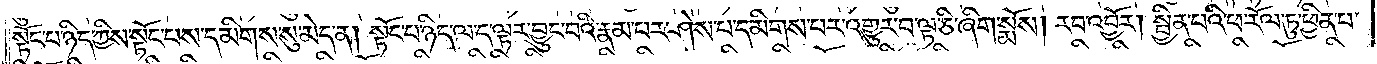སྟོང་པ་ཉིད་ཀྱིས་སྟོང་པས་དམིགས་སུ་མེད་ན། སྟོང་པ་ཉིད་ལ་ད་ལྟར་བྱུང་བའི་རྣམ་པར་ཤེས་པ་དམིགས་པར་འགྱུར་བ་ལྟ་ཅི་ཞིག་སྨོས། རབ་འབྱོར། སྦྱིན་པའི་ཕ་རོལ་ཏུ་ཕྱིན་པ་
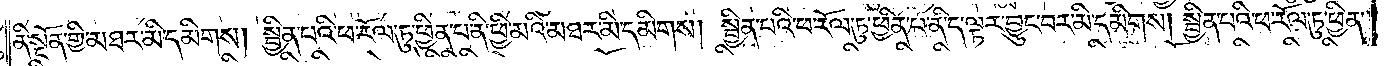ནི་སྔོན་གྱི་མཐར་མི་དམིགས། སྦྱིན་པའི་ཕ་རོལ་ཏུ་ཕྱིན་པ་ནི་ཕྱི་མའི་མཐར་མི་དམིགས། སྦྱིན་པའི་ཕ་རོལ་ཏུ་ཕྱིན་པ་ནི་ད་ལྟར་བྱུང་བར་མི་དམིགས། སྦྱིན་པའི་ཕ་རོལ་ཏུ་ཕྱིན་
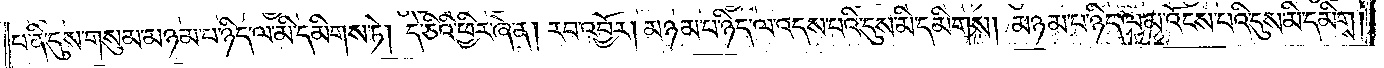པ་ནི་དུས་གསུམ་མཉམ་པ་ཉིད་ལ་མི་དམིགས་ཏེ། དེ་ཅིའི་ཕྱིར་ཞེ་ན། རབ་འབྱོར། མཉམ་པ་ཉིད་ལ་འདས་པའི་དུས་མི་དམིགས། མཉམ་པ་ཉིད་ལ་མ་འོངས་པའི་དུས་མི་དམིགས།
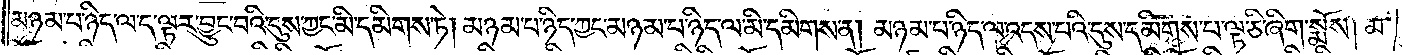མཉམ་པ་ཉིད་ལ་ད་ལྟར་བྱུང་བའི་དུས་ཀྱང་མི་དམིགས་ཏེ། མཉམ་པ་ཉིད་ཀྱང་མཉམ་པ་ཉིད་ལ་མི་དམིགས་ན། མཉམ་པ་ཉིད་ལ་འདས་པའི་དུས་དམིགས་པ་ལྟ་ཅི་ཞིག་སྨོས། མ་
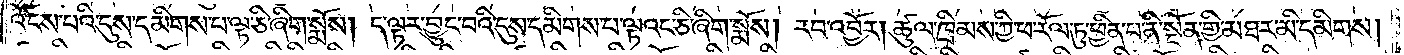འོངས་པའི་དུས་དམིགས་པ་ལྟ་ཅི་ཞིག་སྨོས། ད་ལྟར་བྱུང་བའི་དུས་དམིགས་པ་ལྟའང་ཅི་ཞིག་སྨོས། རབ་འབྱོར། ཚུལ་ཁྲིམས་ཀྱི་ཕ་རོལ་ཏུ་ཕྱིན་པ་ནི་སྔོན་གྱི་མཐར་མི་དམིགས།
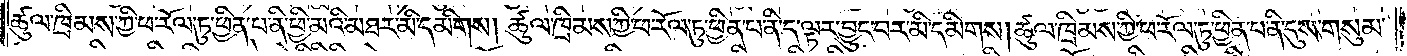ཚུལ་ཁྲིམས་ཀྱི་ཕ་རོལ་ཏུ་ཕྱིན་པ་ནི་ཕྱི་མའི་མཐར་མི་དམིགས། ཚུལ་ཁྲིམས་ཀྱི་ཕ་རོལ་ཏུ་ཕྱིན་པ་ནི་ད་ལྟར་བྱུང་བར་མི་དམིགས། ཚུལ་ཁྲིམས་ཀྱི་ཕ་རོལ་ཏུ་ཕྱིན་པ་ནི་དུས་གསུམ་
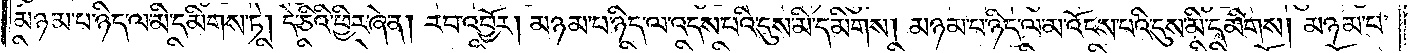མཉམ་པ་ཉིད་ལ་མི་དམིགས་ཏེ། དེ་ཅིའི་ཕྱིར་ཞེ་ན། རབ་འབྱོར། མཉམ་པ་ཉིད་ལ་འདས་པའི་དུས་མི་དམིགས། མཉམ་པ་ཉིད་ལ་མ་འོངས་པའི་དུས་མི་དམིགས། མཉམ་པ་
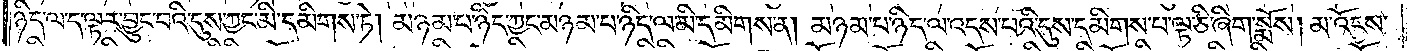ཉིད་ལ་ད་ལྟར་བྱུང་བའི་དུས་ཀྱང་མི་དམིགས་ཏེ། མཉམ་པ་ཉིད་ཀྱང་མཉམ་པ་ཉིད་ལ་མི་དམིགས་ན། མཉམ་པ་ཉིད་ལ་འདས་པའི་དུས་དམིགས་པ་ལྟ་ཅི་ཞིག་སྨོས། མ་འོངས་
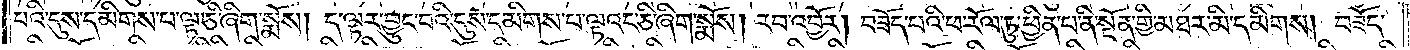པའི་དུས་དམིགས་པ་ལྟ་ཅི་ཞིག་སྨོས། ད་ལྟར་བྱུང་བའི་དུས་དམིགས་པ་ལྟའང་ཅི་ཞིག་སྨོས། རབ་འབྱོར། བཟོད་པའི་ཕ་རོལ་ཏུ་ཕྱིན་པ་ནི་སྔོན་གྱི་མཐར་མི་དམིགས། བཟོད་
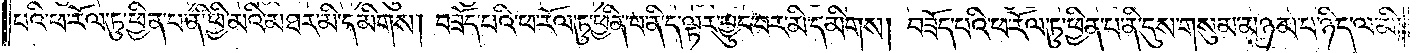པའི་ཕ་རོལ་ཏུ་ཕྱིན་པ་ནི་ཕྱི་མིའི་མཐར་མི་དམིགས། བཟོད་པའི་ཕ་རོལ་ཏུ་ཕྱིན་པ་ནི་ད་ལྟར་བྱུང་བར་མི་དམིགས། བཟོད་པའི་ཕ་རོལ་ཏུ་ཕྱིན་པ་ནི་དུས་གསུམ་མཉམ་པ་ཉིད་ལ་མི་
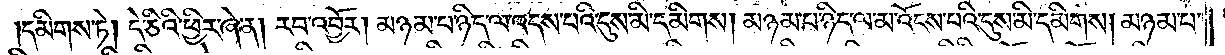དམིགས་ཏེ། དེ་ཅིའི་ཕྱིར་ཞེ་ན། རབ་འབྱོར། མཉམ་པ་ཉིད་ལ་འདས་པའི་དུས་མི་དམིགས། མཉམ་པ་ཉིད་ལ་མ་འོངས་པའི་དུས་མི་དམིགས། མཉམ་པ་
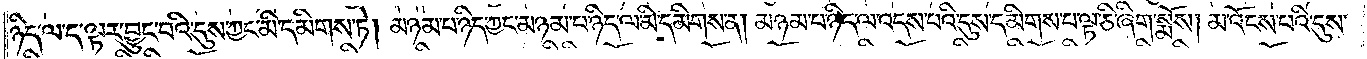ཉིད་ལ་ད་ལྟར་བྱུང་བའི་དུས་ཀྱང་མི་དམིགས་ཏེ། མཉམ་པ་ཉིད་ཀྱང་མཉམ་པ་ཉིད་ལ་མི་དམིགས་ན། མཉམ་པ་ཉིད་ལ་འདས་པའི་དུས་དམིགས་པ་ལྟ་ཅི་ཞིག་སྨོས། མ་འོངས་པའི་དུས་
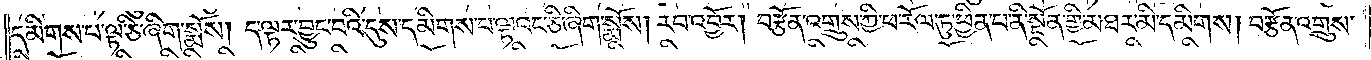དམིགས་པ་ལྟ་ཅི་ཞིག་སྨོས། ད་ལྟར་བྱུང་བའི་དུས་དམིགས་པ་ལྟའང་ཅི་ཞིག་སྨོས། རབ་འབྱོར། བརྩོན་འགྲུས་ཀྱི་ཕ་རོལ་ཏུ་ཕྱིན་པ་ནི་སྔོན་གྱི་མཐར་མི་དམིགས། བརྩོན་འགྲུས་
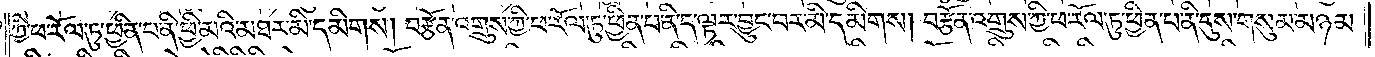ཀྱི་ཕ་རོལ་ཏུ་ཕྱིན་པ་ནི་ཕྱི་མའི་མཐར་མི་དམིགས། བརྩོན་འགྲུས་ཀྱི་ཕ་རོལ་ཏུ་ཕྱིན་པ་ནི་ད་ལྟར་བྱུང་བར་མི་དམིགས། བརྩོན་འགྲུས་ཀྱི་ཕ་རོལ་ཏུ་ཕྱིན་པ་ནི་དུས་གསུམ་མཉམ་
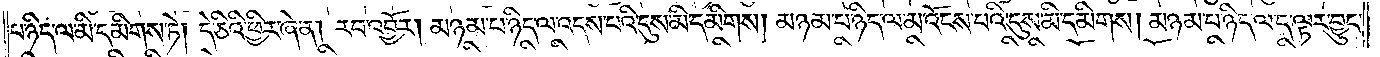པ་ཉིད་ལ་མི་དམིགས་ཏེ། དེ་ཅིའི་ཕྱིར་ཞེ་ན། རབ་འབྱོར། མཉམ་པ་ཉིད་ལ་འདས་པའི་དུས་མི་དམིགས། མཉམ་པ་ཉིད་ལ་མ་འོངས་པའི་དུས་མི་དམིགས། མཉམ་པ་ཉིད་ལ་ད་ལྟར་བྱུང་
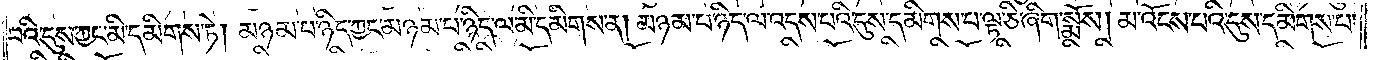བའི་དུས་ཀྱང་མི་དམིགས་ཏེ། མཉམ་པ་ཉིད་ཀྱང་མཉམ་པ་ཉིད་ལ་མི་དམིགས་ན། མཉམ་པ་ཉིད་ལ་འདས་པའི་དུས་དམིགས་པ་ལྟ་ཅི་ཞིག་སྨོས། མ་འོངས་པའི་དུས་དམིགས་པ་
